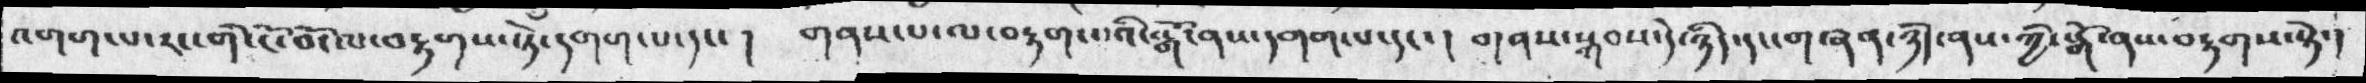འགག་པ་རང་གི་ངོ་བོ་ལ་བརྟགས་སྟེ་དགག་པ་དང་།  གནས་པ་ལ་བརྟག་པའི་སྒོ་ནས་དགག་པ་དང་།  གནས་སྐབས་དེ་ཉིད་དང་གཞན་ཉིད་ནས་ཀྱི་སྒོ་ནས་བརྟགས་སྟེ་།
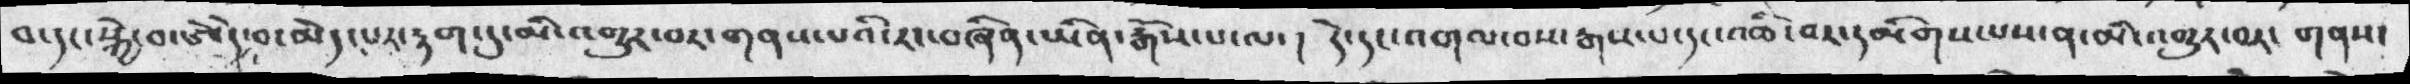བ་དང་སྐྱེ་ཨེདེ་བ་མེད་རྟག་དུ་མི་འགྱུར་བར་གནས་པའི་རང་བཞིན་ཡིན་རྒོས་པ་ལ་། དེ་དང་འགལ་བས་རྒས་པ་དང་འཆི་བར་དམིགས་པས་ན་མི་འགྱུར་བར་།  གནས་
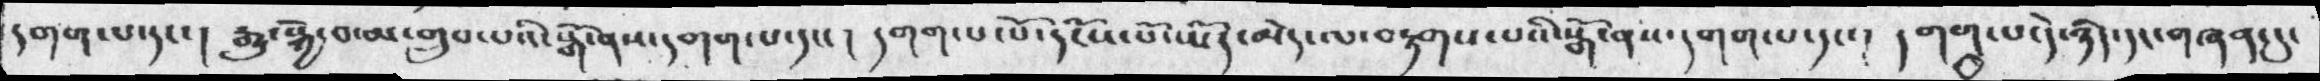དགག་པ་དང་། རྒྱུ་སྐྱེ་བ་མ་གྲུབ་པའི་སྒོ་ནས་དགག་པ་དང་།  དགག་པ་པོ་དངོས་པོ་ཡོད་མེད་ལ་བརྟགས་པའི་སྒོ་ནས་དགག་པ་དང་།   དགག་པ་དེ་ཉིད་དང་གཞན་དུ་
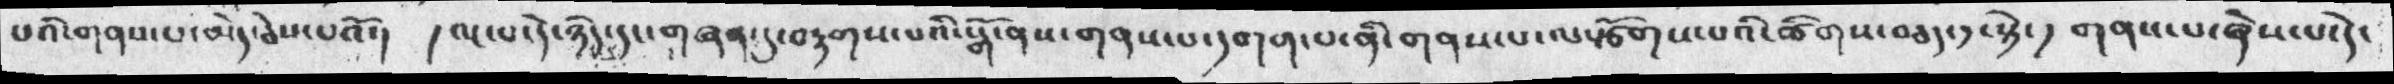པའི་གནས་པ་མེད་ཅེས་པའོ་།  །ལྔ་པ་དེ་ཉིད་དང་གཞན་དུ་བརྟགས་པའི་སྒོ་ནས་གནས་པ་དགག་པ་ནི་གནས་ལ་ལསྩོགས་པའི་ཚིགས་བཅད་༡་སྟེ་།  གནས་པ་ཞེས་པ་དེ་
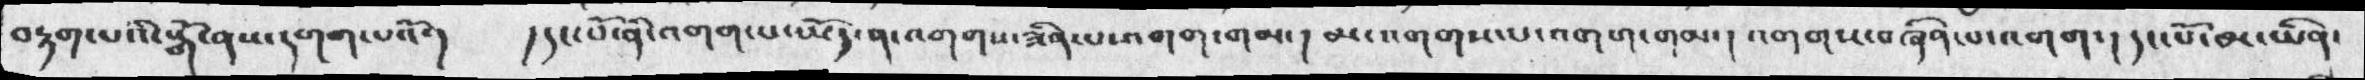བརྟག་པའི་སྒོ་ནས་དགག་པའོ་།   །དང་པོ་ནི་འགག་པ་ཡོད་ན་འགགས་ཟིན་པ་འགག་གམ་།  མ་འགགས་པ་འགག་གམ་།  འགགས་བཞིན་པ་འགག་།  དང་པོ་མ་ཡིན་
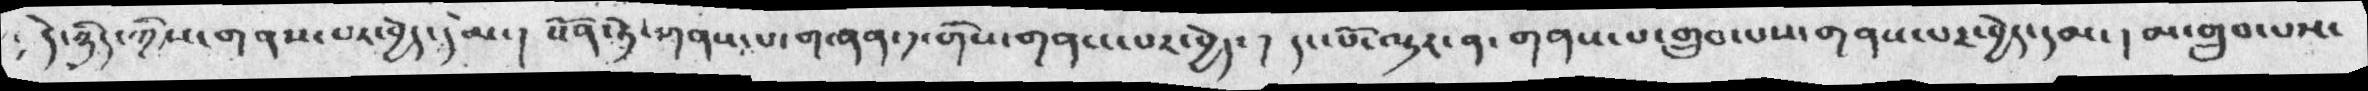དེ་ཉིད་ཀྱིས་གནས་པར་བྱེད་དམ་། འོན་ཏེ་གནས་པ་གཞན་༡་གིས་གནས་པར་བྱེད་ ། དང་པོ་ལྟར་ན་གནས་པ་གྲུབ་པས་གནས་པར་བྱེད་དམ་།  མ་གྲུབ་པས་
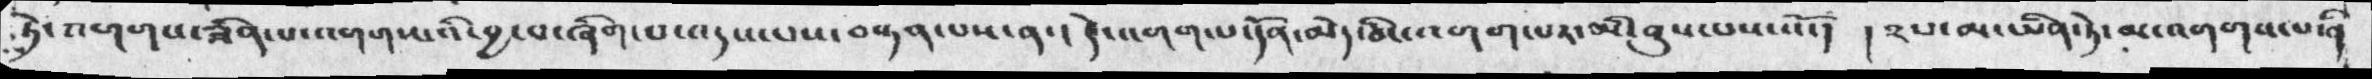ཏེ་འགགས་ཟིན་པ་འགག་འི་བྱ་བ་ཞིག་པ་འདས་པས་བསྟན་པས་ན་།  དེ་འགག་པ་དོན་མེད་མི་འགག་པར་མི་ནུས་པས་སོ་།  །༢པ་མ་ཡིན་ཏེ་མ་འགགས་པ་ནི་
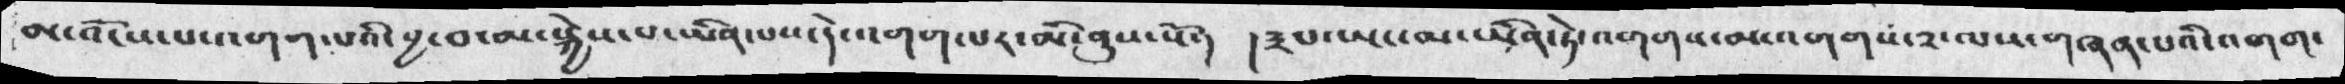མ་འོངས་པས་འགག་པའི་བྱ་བ་མ་སྐྱེས་པ་ཡིན་པས་དེ་འགག་པར་མི་ནུས་སོ་།   །༣པ་ཡང་མ་ཡིན་ཏེ་འགགས་མ་འགགས་༢་ལས་གཞན་པའི་འགག་
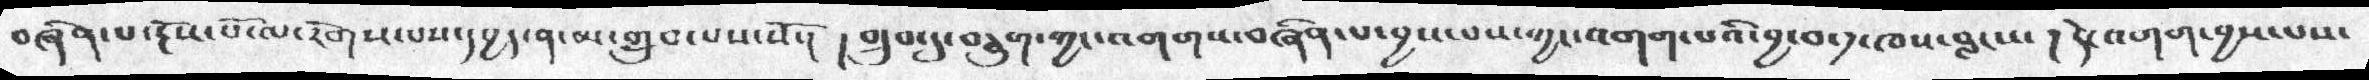བཞིན་པ་རྔོས་པོ་ལ་རེགས་པས་དཔྱད་ན་མ་གྲུབ་པས་སོ་།  ། གྲུབ་དུ་བཅུག་ཀྱང་འགགས་བཞིན་པ་བྱས་པས་གྱང་འགག་པའི་བྱ་བ་༡་ཁས་བླངས་  ། དེ་འགག་བྱས་པས་
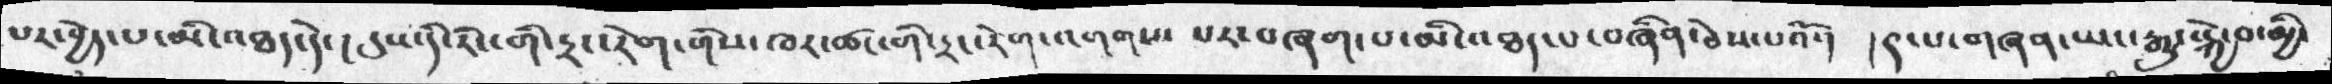པར་བྱེད་པ་མི་འཐད་དེ་ ། དུས་དིད་རིང་གི་དྲང་རེག་གིས་ཁྲ་ཚང་གི་དྲང་རེག་འགགས་ པར་བཞག་པ་མི་འཐད་པ་བཞིན་ཅེས་པའོ་།  །༩་པ་གཞན་ཡང་རྒྱུ་སྐྱེ་བ་མྱི་
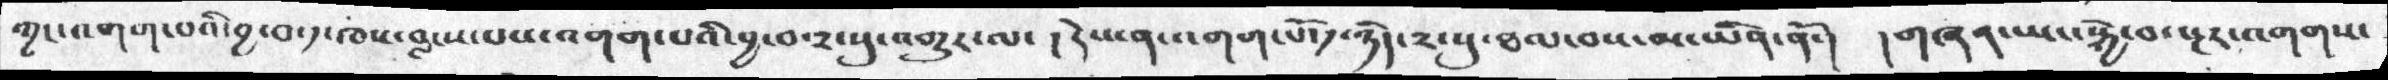ཀྱང་འགག་པའི་བྱ་བ་ཁས་བླངས་པས་འགག་པའི་བྱ་༢་སུ་འགྱུར་ལ་ ། དེས་ན་འགག་པོ་༡་ཉིད་༢་སུ་ཐལ་བས་མ་ཡིན་ནོ་།    ། གཞན་ཡང་སྐྱེ་བ་སྔར་འགགས་
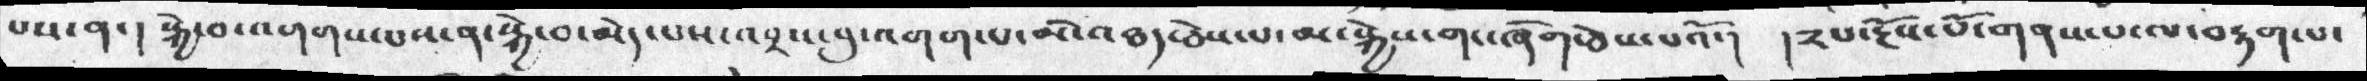པས་ན་། སྐྱེ་བ་འགགས་པས་ན་སྐྱེ་བ་མེད་པས་འབྲས་སུ་འགག་པ་མི་འཐད་ཅེས་པ་མ་སྐྱེས་གང་ཞིག་ཅེས་པའོ་།   །༢པ་རྔོས་པོ་གནས་པ་ལ་བརྟག་པ་
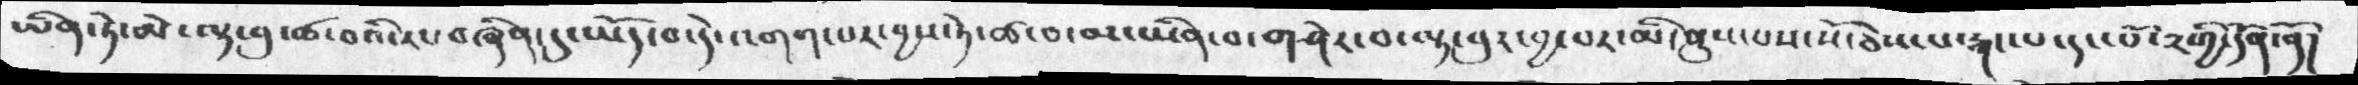ཡིན་ཏེ་མི་ལྟ་བུ་ཚ་བའི་རང་བཞིན་དུ་ཡོད་བ་དེ་འགག་པར་བྱས་ཏེ་ཚ་བ་མ་ཡིན་བ་གཤེར་བ་ལྟ་བུར་བྱསཔར་མི་ནུས་པས་སོ་ཅེས་པ་རྐང་པ་དང་པོ་༢གྱི་དོན་ནོ།
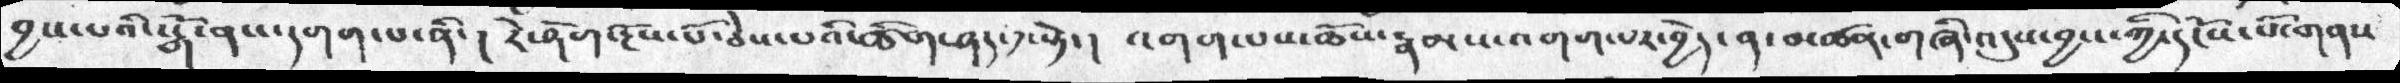བྱས་པའི་སྒོ་ནས་དགག་པ་ནི་ ། རེ་ཤིག་རྔོས་པོ་ཅེས་པའི་ཚིག་ཤད་༡་སྟེ་།  འགག་པས་ཆོས་རྣམས་འགག་པར་བྱེད་ན་མཚན་གཞི་འདུས་བྱས་ཀྱི་དངོས་པོ་གནས
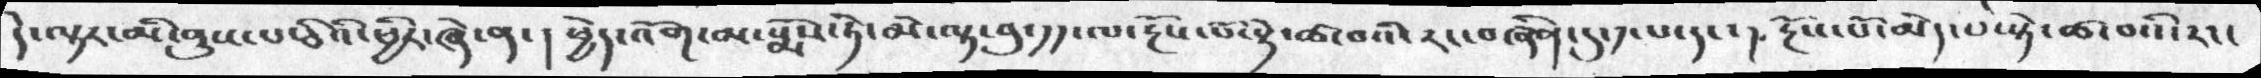དེ་ལྟར་མི་ནུས་པ་ཅིའི་ཕྱིར་ཞེ་ན་།  ཕྱེད་འོག་མ་སྨོས་ཏེ་མེ་ལྟ་བུ་༡༡་ལ་རྔོས་པོ་སྟེ་ཚ་བའི་རང་བཞིན་དུ་༡་པ་དང་།  རྔོས་པོ་མེད་པ་སྟེ་ཚ་བའི་རང་
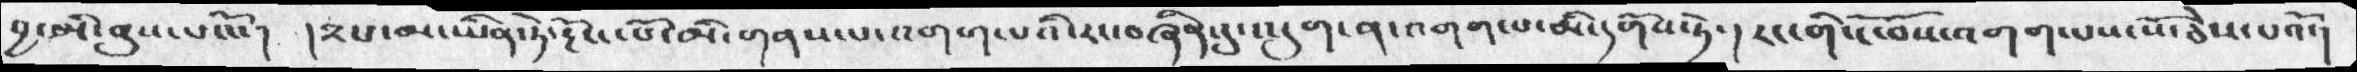བྱ་མི་ནུས་པ་འོ་།   །༢པ་མ་ཡིན་ཏེ་རྔོས་པོ་མི་གནས་པ་འགག་པའི་རང་བཞིན་དུ་འདུག་ན་འགག་པ་མི་དགོས་ཏེ་།  རང་གིས་ངོ་བོས་འགག་པས་སོ་ཅེས་པའོ་།
